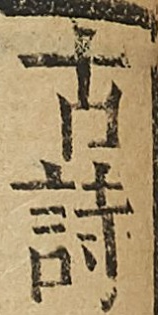古詩
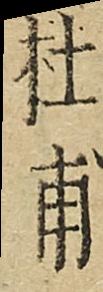杜甫
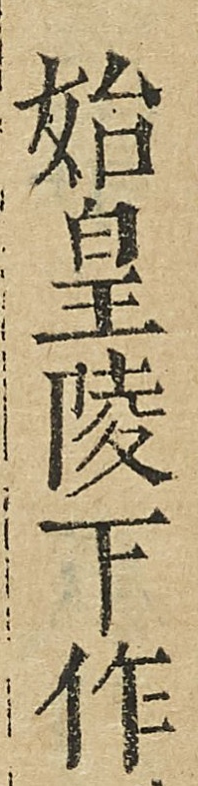始皇陵下作
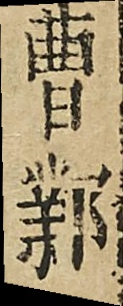曹鄴
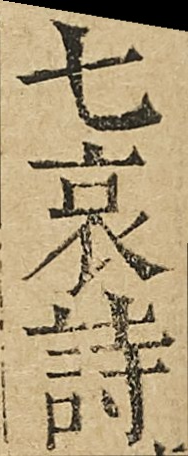七哀詩
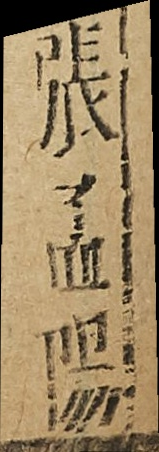張孟陽
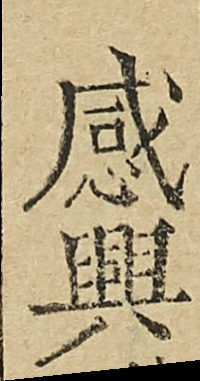感興
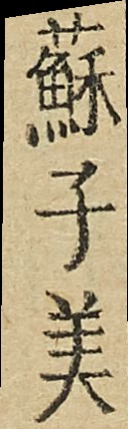蘇子美
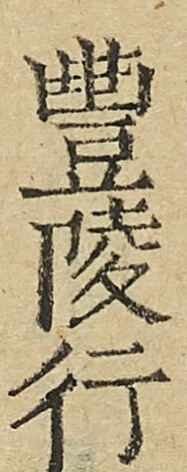豐陵行
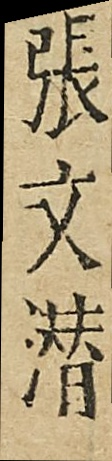張文潛
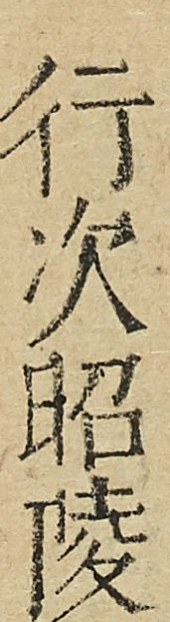行次昭陵
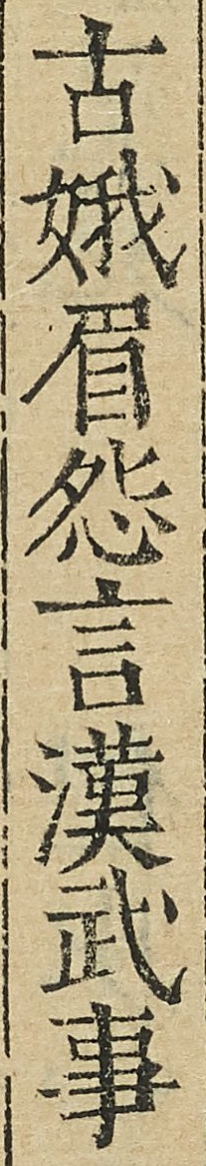古娥眉怨言漢武事
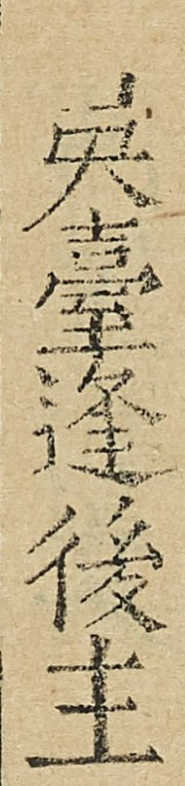吳臺逢後主
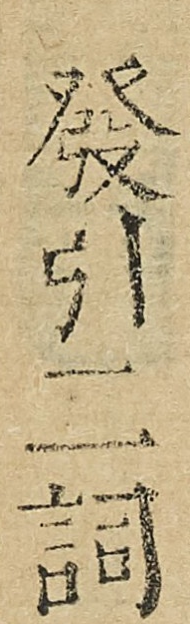發引二詞
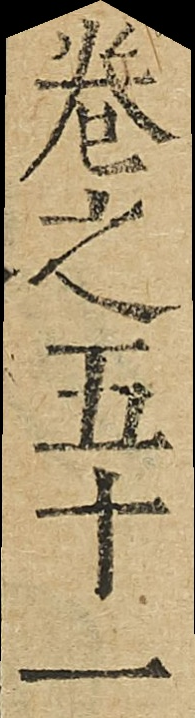卷之五十一
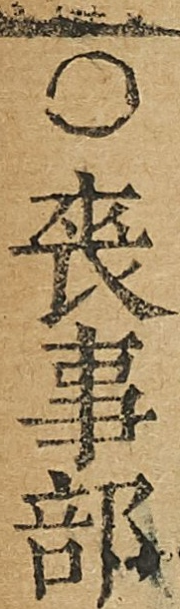喪事部
